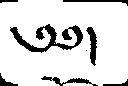༄༅།
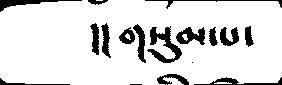།།གསུམ་པ་
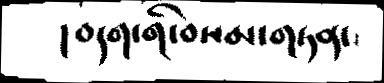།བདག་གི་བསམ་གཏན་
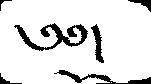༄༅།
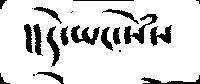།།དེ་ཡང་སེཾས
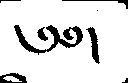༄༅།
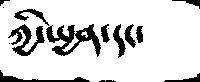ཀྱི་སྤྱན་དང་
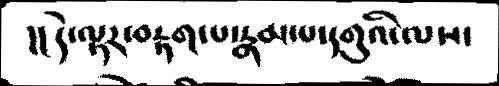།།དེ་ལྟར་བརྟག་པ་རྣམ་པ་དགུའི་ལས་
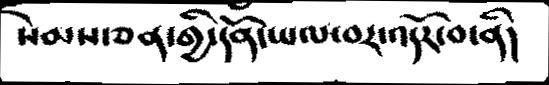སེམས་ཅན་གྱི་དོན་ཡལ་བར་འདོར་བ་ནི།
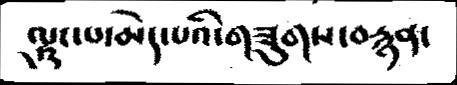ལྟུང་པ་མེད་པའི་གཟུགས་བརྙན་
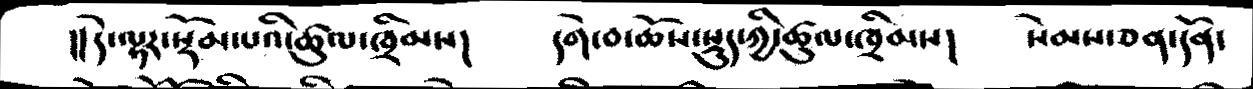།། དེ་ལྟར་སྡོམ་པའི་ཚུལ་ཁྲིམས།     དགེ་བ་ཆོས་སྡུད་ཀྱི་ཚུལ་ཁྲིམས།    སེམས་ཅན་དོན་
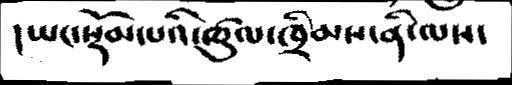།ཡང་སྡོམ་པའི་ཚུལ་ཁྲིམས་ནི་ལས་
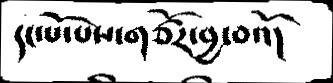དང་པོ་པས་གཙོར་བྱ་བའོ།
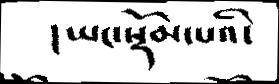།ཡང་སྡོམ་པའི་
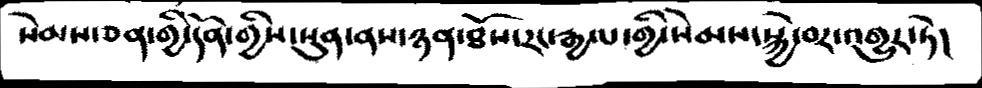སེམས་ཅན་གྱི་དོན་གྱིས་སུན་ནས་ཉན་ཐོས་རང་རྒྱལ་གྱི་སེམས་སྐྱེ་བར་འགྱུར་ཏེ།
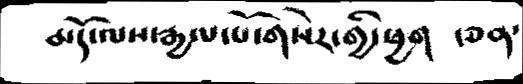མདོ་ལས་རྒྱལ་པོ་གསེར་གྱི་ཕྱག  ་ཅན་
